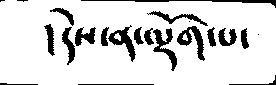།དེས་ན་ལྡོག་པ་
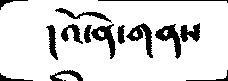།འོ་ན་གནས
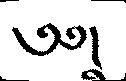༄༅།
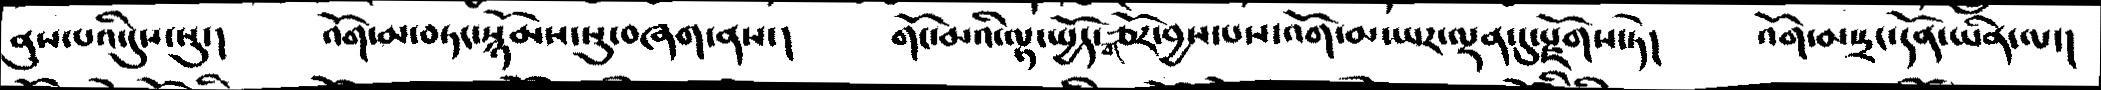ནུས་པའི་དུས་སུ་།   འོག་མ་བཏང་སྙོམས་སུ་བཞག་ནས་།   གོང་མའི་ལྟ་སྤྱོད་གཙོར་བྱས་པས་འོག་མ་ཡར་ལྡན་དུ་རྫོགས་ཏེ་།    འོག་མ་དྲང་དོན་ཡིན་ལ་།
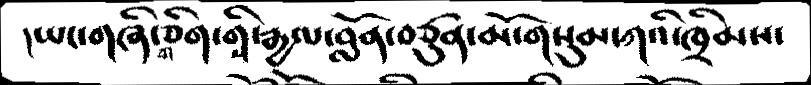།ཡང་གཞི་གཅིག་གིས་རྒྱལ་བློན་བཙུན་མོ་གསུམ་ཀའི་ཁྲིམས་
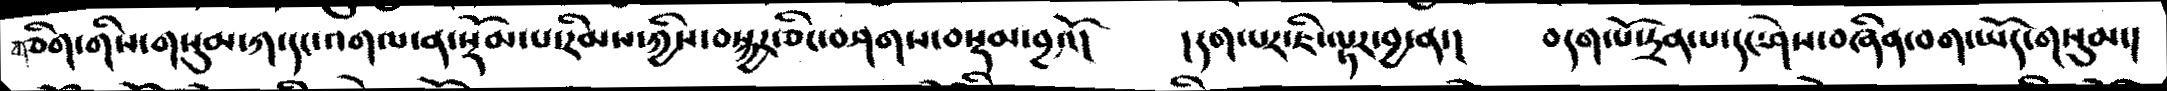གཅིག་གིས་གསུམ་ཀ་དང་འགལ་ན་སྡོམ་པ་རིམས་ཀྱིས་བསྐྱར་ཅིང་བཤགས་བསྡམ་བྱའོ།   །དག་པར་ཇི་ལྟར་བྱ་ན་།   བདག་པོ་དྲན་པ་དང་ཤེས་བཞིན་བག་ཡོད་གསུམ་།
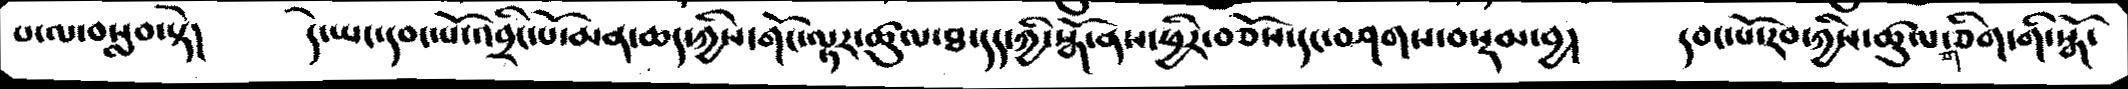པ་ལ་བསླབ་སྟེ།   དེ་ཡང་དབང་པོ་འབྲིང་པོ་མན་ཆད་ཀྱིས་གོང་ལྟར་ཚུལ་ཐ་དད་ཀྱི་སྒོ་ནས་ཕྱིར་བཅོས་བཤགས་བསྡམ་བྱ།   དབང་པོ་རབ་ཀྱིས་ཚུལ་གཅིག་གི་སྒོ་
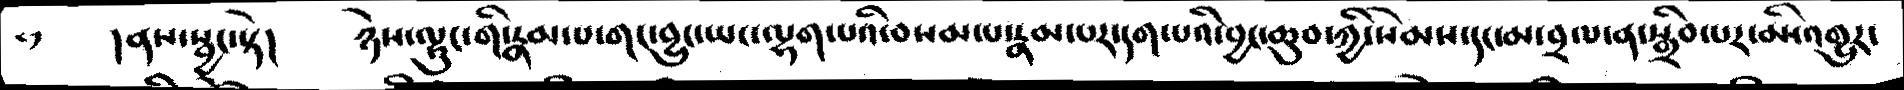༴    །ནས་སྦྱང་སྟེ།   ཉེས་ལྟུང་གི་རྣམ་པ་གང་བྱུང་ཡང་ལྷག་པའི་བསམ་པ་རྣམ་པར་དག་པའི་བྱང་ཆུབ་ཀྱི་སེམས་དང་མ་བྲལ་ན་སྒྲིབ་པར་མི་འགྱུར་
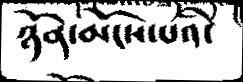ཉོན་མོངས་པའི་
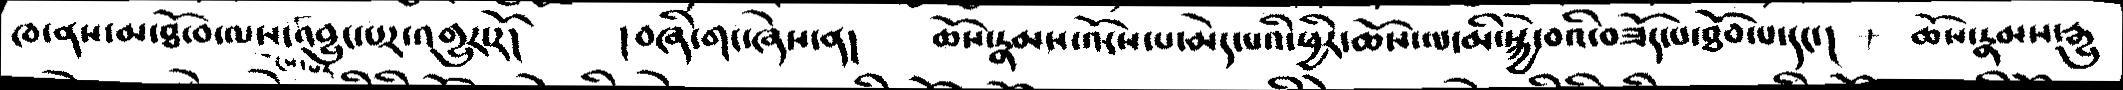ཁ་ནས་མ་ཐོ་བ་ལས་ངེས་པར་འབྱུང་པར་འགྱུར་རོ་།   །བཞི་གང་ཞེས་ན།   ཆོས་རྣམས་འོངས་པ་མེད་པའི་ཕྱིར་ཆོས་ལ་མི་སྐྱེ་བའི་བཟོད་པ་ཐོབ་པ་དང་།   ཆོས་རྣམས་རྒྱུ
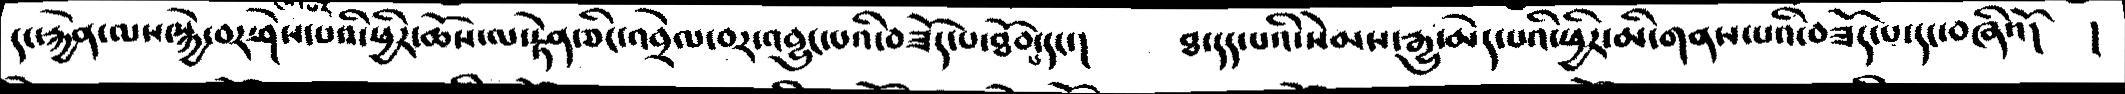དང་རྐྱེན་ལས་སྐྱེ་བར་ཤེས་པའི་ཕྱིར་ཆོས་ལ་རྟེན་ཅིང་འབྲེལ་བར་འབྱུང་པའི་བཟོད་པ་ཐོབ་པ་དང་།   ཐ་དད་པའི་སེམས་རྒྱུ་མེད་པའི་ཕྱིར་མི་གནས་པའི་བཟོད་པ་དང་བཞིའོ་།   །
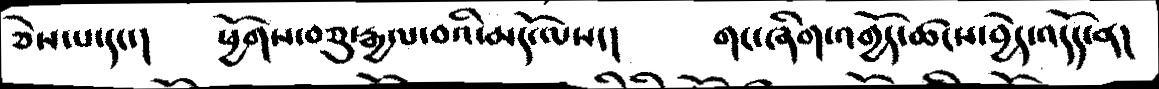ཅེས་པ་དང་།   ཕྱོགས་བཅུ་རྒྱལ་བའི་མདོ་ལས་།   གང་ཞིག་འགྱོད་ཚངས་བྱེད་འདོད་ན།
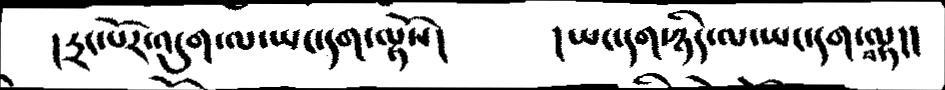།དྲང་པོར་འདུག་ལ་ཡང་དག་ལྟོས།   །ཡང་དག་ཉིད་ལ་ཡང་དག་བལྟ།།
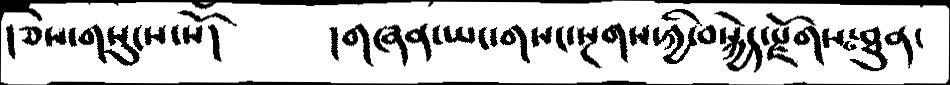།ཅེས་གསུངས་སོ།   །གཞན་ཡང་གསང་སྔགས་ཀྱི་བསྐྱེད་རྫོགས་ཐུན་
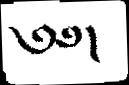༄༅།
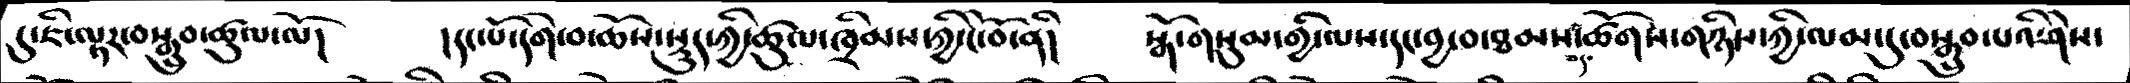དུ་ཇི་ལྟར་བསྒྲུབ་ཚུལ་ལོ།   །དང་པོ་དགེ་བ་ཆོས་སྡུད་ཀྱི་ཚུལ་ཁྲིམས་ཀྱི་ངོ་བོ་ནི།    སྒོ་གསུམ་གྱི་ལས་དང་བྱ་བ་ཐམས་ཅད་ཚོགས་གཉིས་ཀྱི་ལམ་དུ་བསྒྲུབ་པའི་ཤེས་
